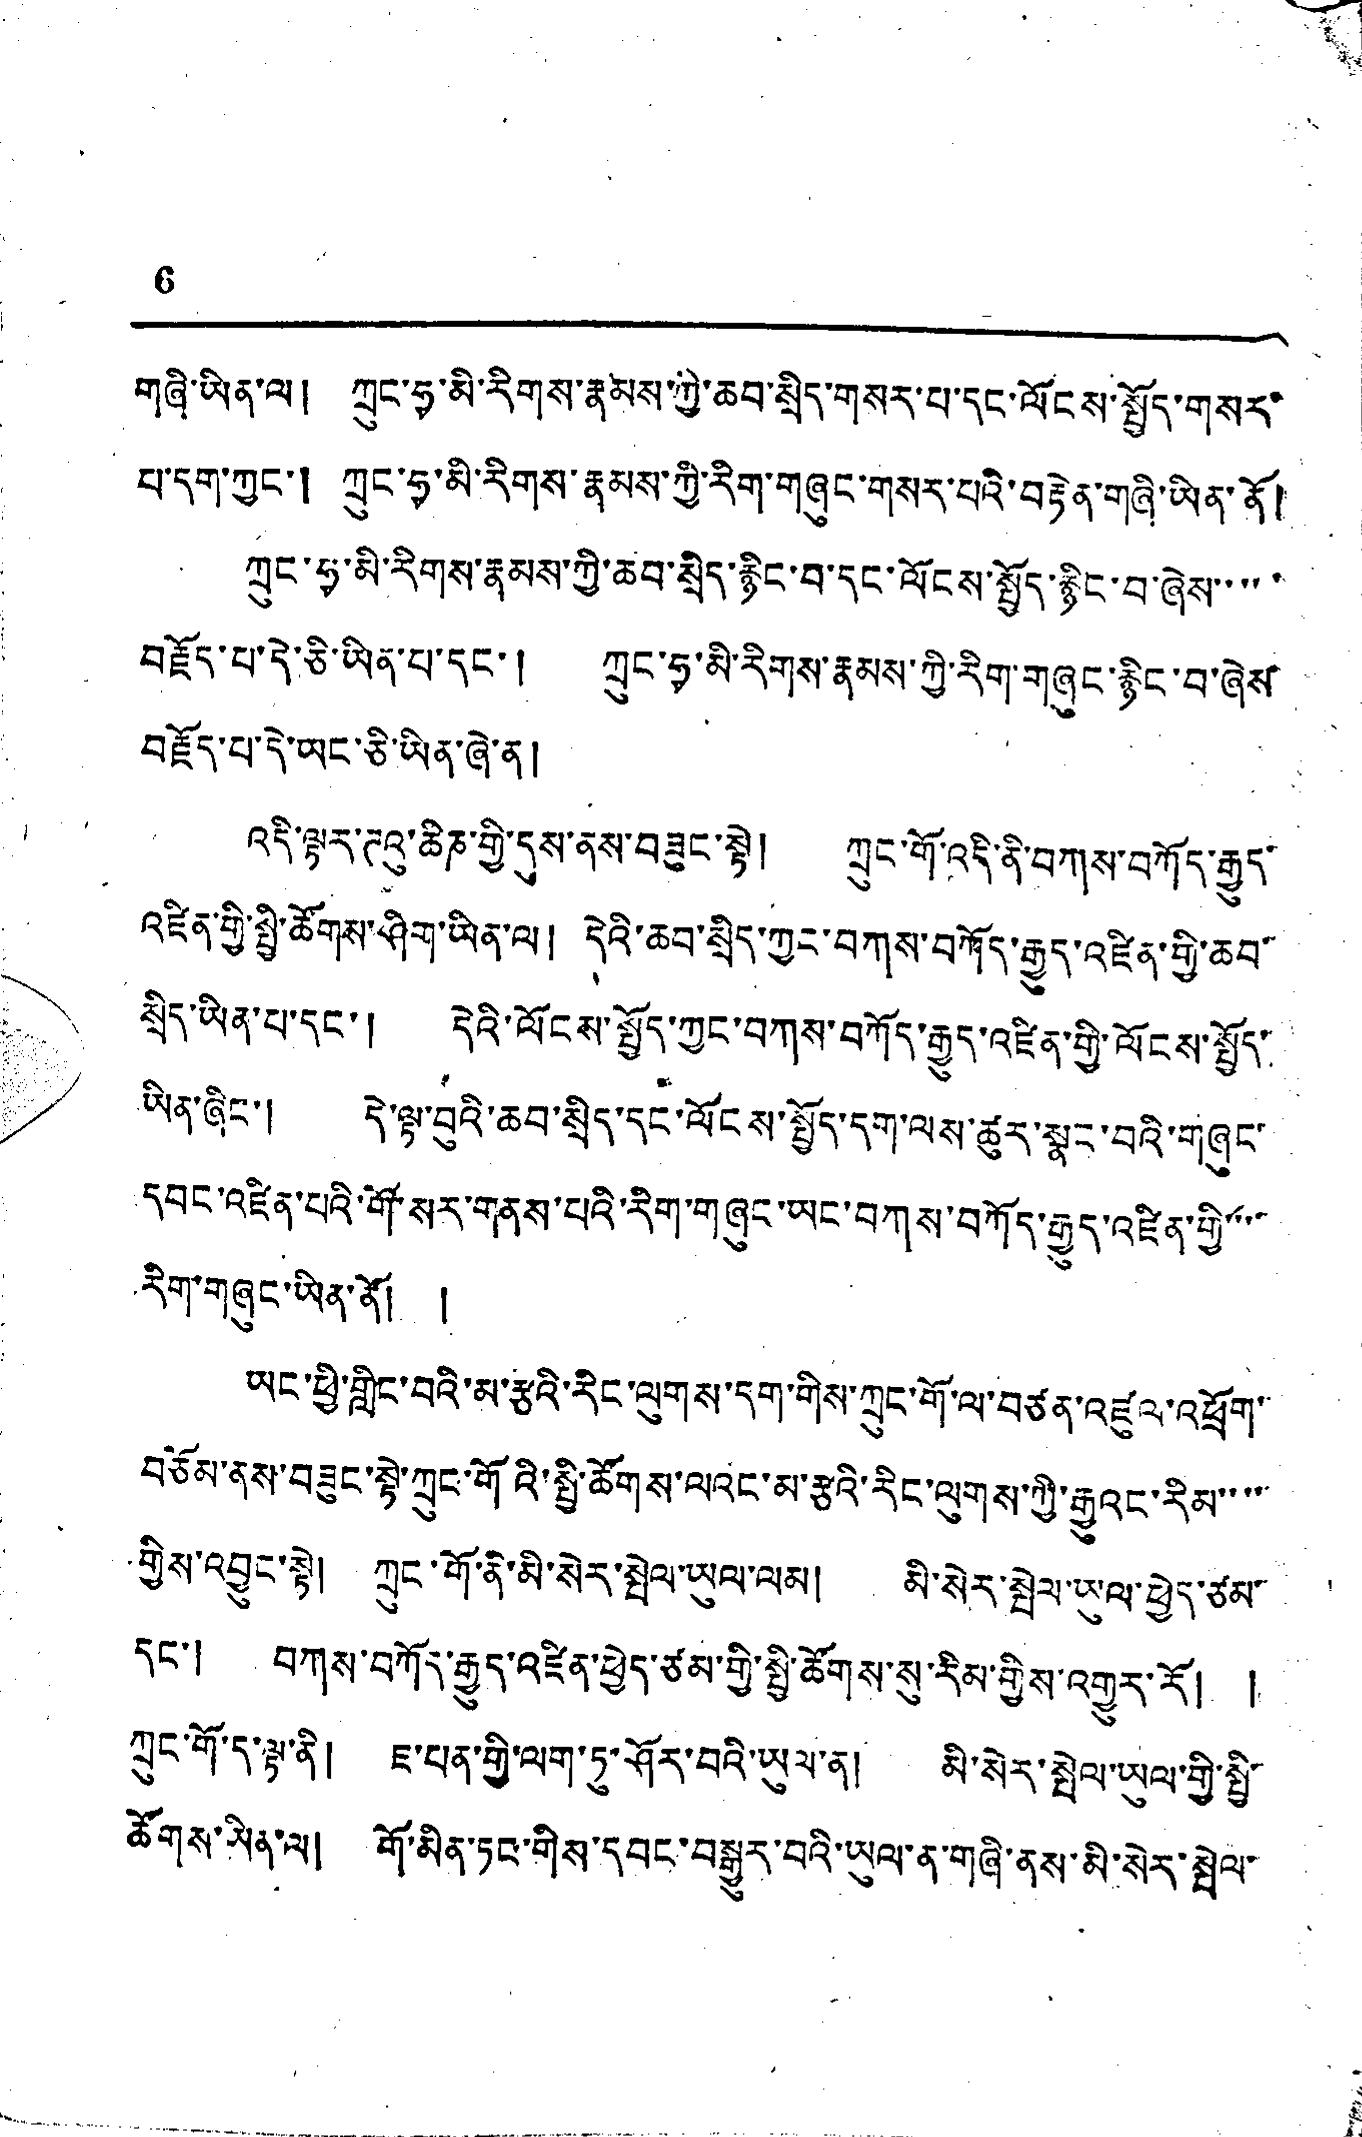6
གཞི་ཡིན་ལ། ཀྲུང་ཧྭ་མི་རིགས་རྣམས་ཀྱི་ཆབ་སྲིད་གསར་པ་དང་ལོངས་སྤྱོད་གསར་
པ་དག་ཀྱང་། ཀྲུང་ཧྭ་མི་རིགས་རྣམས་ཀྱི་རིག་གཞུང་གསར་པའི་བརྟེན་གཞི་ཡིན་ནོ།
ཀྲུང་ཧྭ་མི་རིགས་རྣམས་ཀྱི་ཆབ་སྲིད་རྙིང་བ་དང་ལོངས་སྤྱོད་རྙིང་བ་ཞེས་་་་་
བརྗོད་པ་དེ་ཅི་ཡིན་པ་དང་། ཀྲུང་ཧྭ་མི་རིགས་རྣམས་ཀྱི་རིག་གཞུང་རྙིང་བ་ཞེས་
བརྗོད་པ་དེ་ཡང་ཅི་ཡིན་ཞེ་ན།
འདི་ལྟར་ཊའུ་ཆིཎ་གྱི་དུས་ནས་བཟུང་སྟེ། ཀྲུང་གོ་འདི་ནི་བཀས་བཀོད་རྒྱུད་
འཛིན་གྱི་སྤྱི་ཚོགས་ཤིག་ཡིན་ལ། དེའི་ཆབ་སྲིད་ཀྱང་བཀས་བཀོད་རྒྱུད་འཛིན་གྱི་ཆབ་་
སྲིད་ཡིན་པ་དང་། དེའི་ལོངས་སྤྱོད་ཀྱང་བཀས་བཀོད་རྒྱུད་འཛིན་གྱི་ལོངས་སྤྱོད་
ཡིན་ཞིང་། དེ་ལྟ་བུའི་ཆབ་སྲིད་དང་ལོངས་སྤྲོད་དག་ལས་ཚུར་སྣང་བའི་གཞུང་
དབང་འཛིན་པའི་གོ་སར་གནས་པའི་རིག་གཞུང་ཡང་བཀས་བཀོད་རྒྱུད་འཛིན་གྱི་་་་
རིག་གཞུང་ཡིན་མོ། །
ཡང་ཕྱི་གླིང་བའི་མ་རྩའི་རིང་ལུགས་དག་གིས་ཀྲུང་གོ་ལ་བཙན་འཛུལ་འཕྲོག་
བཅོམ་ནས་བཟུང་སྟེ་ཀྲུང་གོའི་སྤྱི་ཚོགས་ལའང་མ་རྩའི་རིང་ལུགས་ཀྱི་རྒྱུའང་རིམ་་་་་
གྱིས་འབྱུང་སྟེ། ཀྲུང་གོ་ནི་མི་སེར་སྤེལ་ཡུལ་ལམ། མི་སེར་སྤེལ་ཡུལ་ཕྱེད་ཙམ་
དང་། བཀས་བཀོར་རྒྱུད་འཛིན་ཕྱེད་ཙམ་གྱི་སྤྱི་ཚོགས་སུ་རིམ་གྱིས་འགྱུར་རོ། །
ཀྲུང་གོ་ད་ལྟ་ནི། ཇ་པན་གྱི་ལག་ཏུ་ཤོར་བའི་ཡུལ་ན། མི་སེར་སྤེལ་ཡུལ་གྱི་སྤྱི་
ཚོགས་ཡིན་ལ། གོ་མིན་ཏང་གིས་དབང་བསྒྱུར་བའི་ཡུལ་ན་གཞི་ནས་མི་སེར་སྤེལ་
